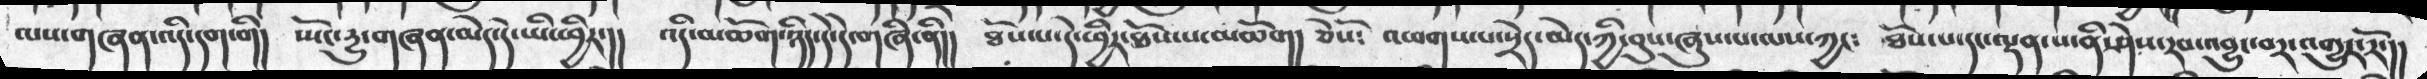ལས་གཞན་འདི་དག་གི།།  ཡོང་དྱུ་གཞན་མེད་དེ་ཡི་ཕྱིར་།།  འདི་མཆོག་ཉིད་དེ་དེ་གཞི་ནི།།  ཐོས་པ་དེ་ཕྱིར་ཐོས་པ་མཆོག། ཅེསོ༴  འཕགས་པ་སྲེད་མེད་ཀྱི་བུས་ཞུས་པ་ལས་ཀྱང༴  ཐོས་པ་དང་ལྡན་པ་ནི་ཤེས་རབ་འབྱུང་བར་འགྱུར་རོ་།།
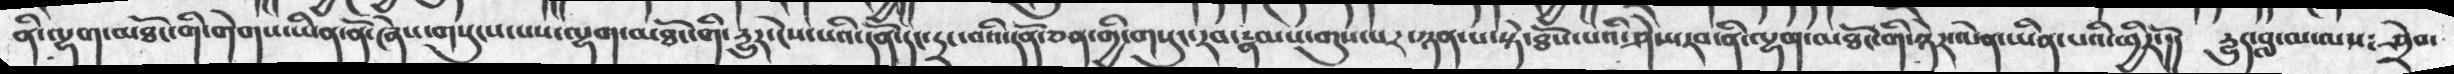ནི་ལྷག་མཐོང་གི་གེགས་ཡིན་ནོ་ཞེས་གསུངས་པས་ལྷག་མཐོང་གི་དྱུར་ངེས་པའི་དོན་དང་དྲང་བའི་ཅན་གྱི་གསུང་རབ་རྣམས་གུས་པར་ཉན་པ་སྟེ་ཐོས་པའི་ཤེས་རབ་ནི་ལྷག་མཐོང་གི་ཉེར་ལེན་ཡིན་པའི་ཕྱིརོ་།།   དྱུད་བླ་མ་ལས༴ ཤྲེབ་
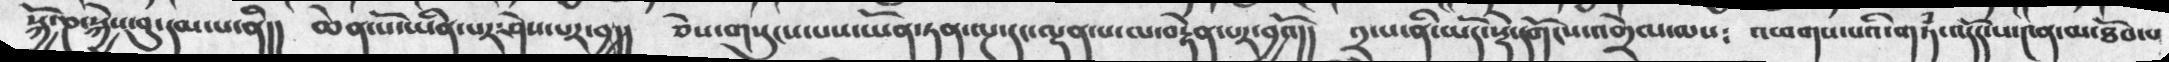སྐྱོ་ཎ་སྐྱེས་བུ་དམ་པ་ནི།།  ཆེན་པོ་ཡིན་པར་ཤེས་པར་བྱ།།  ཅེས་གསུངས་པས་ཡོན་ཏན་ལྔ་དང་ལྡན་པ་ལ་བརྟེན་པར་བྱའོ།།  ༢་པ་ནི་མདོ་སྡེ་དགོངས་འགྲེལ་ལས༴  འཕགས་པའི་གཏཾ་འདོད་པ་༤ན་མ་ཐོབ་པ
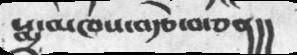སྨྲ་མཁས་བརྩེ་བ་ཅན།།
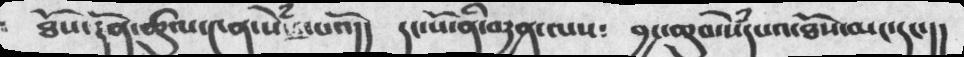ཐོས་དོན་ཚུལ་༤ན་སེཾ་པའོ།།    དང་པོ་ནི་བརྱན་ལས༴   བྱང་ཆུབ་སེཾདཔའ་ཐོས་མང་དང་།།
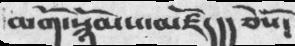མགོ་སྙོམས་མཛོད།། ཅེསོ༴
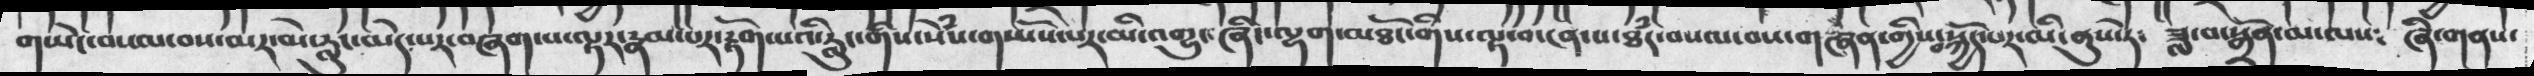གཡེང་བསམ་བས་མར་མེ་རླུང་མེད་པར་བཞག་པ་ལྟར་རྣམ་པར་རྟོག་པའི་རླུང་གིས་སེཾས་གཡོས་པར་མ་འགྱུར་ཞིང་ལྷག་མཐོང་གིས་ལྟ་བ་ངན་པ་ཐཾད་བསམ་བས་གཞན་གྱིས་བསྐྱོད་པར་མི་ནུས་ཏེ༴   ཟླ་བ་སྒྲོན་མ་ལས༴   ཞི་གནས་
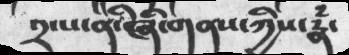༢་པ་ནི་ཞི་གནས་ཀྱིས་རྣཾ་
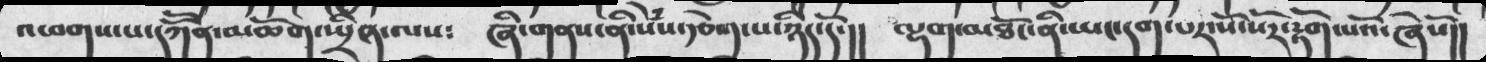འཕགས་པ་དཀོོན་མཆོག་སྤྲིན་ལས༴   ཞི་གནས་ནི་སེཾས་རྩེག་པ་ཉིད་དོ་།།  ལྷག་མཐོང་ནི་ཡང་དག་པར་སོ་སོར་རྟོག་པའོ་ཞེསོ།།
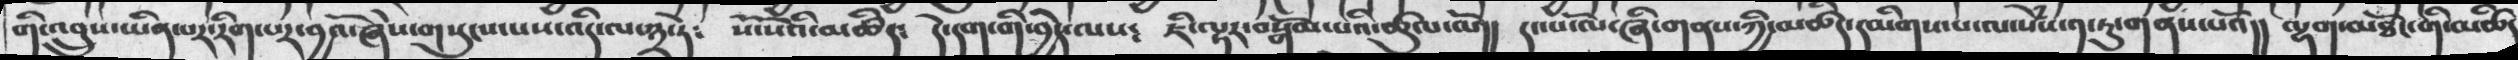གི་འབྲུས་ཡིན་པར་རིག་པར་བྱའོ་ཞེས་གསུངས་པས་འདི་ལ་༣་ཏེ༴  སོ་སོའི་མཚིད༴  དེ་དག་གི་བྱེད་ལས༴  ཇི་ལྟར་བསྒོམ་པའི་ཚུལ་ལོ།།  དང་པོ་ལ་ཞི་གནས་ཀྱི་མཚིད་དམིགས་པ་ལ་སེཾས་༡་ཏུ་གནས་པའོ།།  ལྷག་མཐོང་གི་མཚིད
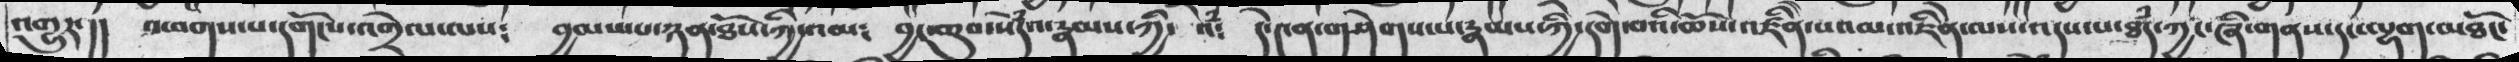འགྱུར་།།  འཕགས་པ་དགོངས་འགྲེལ་ལས༴   བྱམས་པ་ཉན་ཐོས་ཀྱི་འམ༴  བྱང་ཆུབ་སེཾདའ་རྣམས་ཀྱི་ འཾ༴  དེ་༤ན་གཤེགས་པ་རྣམས་ཀྱི་དགེ་བའི་ཆོས་འཛིན་པའམ་འཇིེན་ལས་འདས་པ་ཐཾད་ཀྱང་ཞི་གནས་དང་ལྷག་མཐོང་
